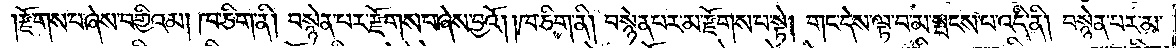།རྫོགས་པ་ཞེས་བགྱིའམ། ཁ་ཅིག་ནི། བསྙེན་པར་རྫོགས་པ་ཞེས་བྱའོ། །ཁ་ཅིག་ནི། བསྙེན་པར་མ་རྫོགས་པ་སྟེ། གང་དེས་ལྟ་བ་མ་སྤངས་པ་འདི་ནི། བསྙེན་པར་མ་
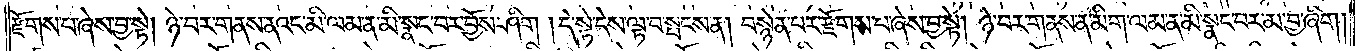རྫོགས་པ་ཞེས་བྱ་སྟེ། ཉེ་བར་གནས་ནའང་མི་ལམ་ན་མི་སྣང་བར་བྱོས་ཤིག །དེ་སྟེ་དེས་ལྟ་བ་སྤངས་ན། བསྙེན་པར་རྫོགས་པ་ཞེས་བྱ་སྟེ། ཉེ་བར་གནས་ན་མིག་ལམ་ན་མི་སྣང་པར་མ་བྱ་ཞིག།
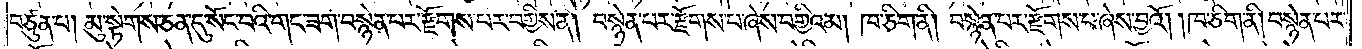བཙུན་པ། མུ་སྟེགས་ཅན་དུ་སོང་བའི་གང་ཟག་བསྙེན་པར་རྫོགས་པར་བགྱིས་ན། བསྙེན་པར་རྫོགས་པ་ཞེས་བགྱིའམ། ཁ་ཅིག་ནི། བསྙེན་པར་རྫོགས་པ་ཞེས་བྱའོ། །ཁ་ཅིག་ནི། བསྙེན་པར་
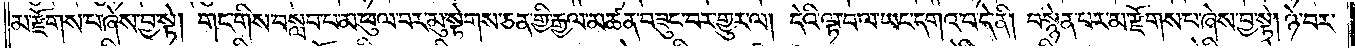མ་རྫོགས་པ་ཞེས་བྱ་སྟེ། གང་གིས་བསླབ་པ་མ་ཕུལ་བར་མུ་སྟེགས་ཅན་གྱི་རྒྱལ་མཚན་བཟུང་བར་གྱུར་ལ། དེའི་ལྟ་བ་ལ་ཡང་དགའ་བ་དེ་ནི། བསྙེན་པར་མ་རྫོགས་པ་ཞེས་བྱ་སྟེ། ཉེ་བར་
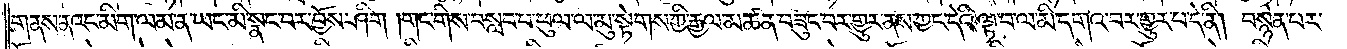གནས་ནའང་མིག་ལམ་ན་ཡང་མི་སྣང་བར་བྱོས་ཤིག །གང་གིས་བསླབ་པ་ཕུལ་ལ་མུ་སྟེགས་ཀྱི་རྒྱལ་མཚན་བཟུང་བར་གྱུར་ནས་ཀྱང་དེའི་ལྟ་བ་ལ་མི་དགའ་བར་གྱུར་པ་དེ་ནི། བསྙེན་པར་
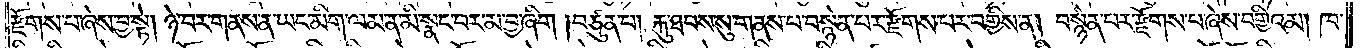རྫོགས་པ་ཞེས་བྱ་སྟེ། ཉེ་བར་གནས་ན་ཡང་མིག་ལམ་ན་མི་སྣང་བར་མ་བྱ་ཞིག། བཙུན་པ། རྐུ་ཐབས་སུ་གནས་པ་བསྙེན་པར་རྫོགས་པར་བགྱིས་ན། བསྙེན་པར་རྫོགས་པ་ཞེས་བགྱིའམ། ཁ་
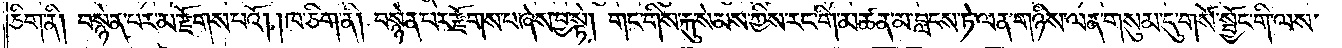ཅིག་ནི། བསྙེན་པར་མ་རྫོགས་པའོ། །ཁ་ཅིག་ནི། བསྙེན་པར་རྫོགས་པ་ཞེས་བྱ་སྟེ། གང་གིས་རྐུ་སེམས་ཀྱིས་རང་གི་མཚན་མ་བླངས་ཏེ་ལན་གཉིས་ལན་གསུམ་དུ་གསོ་སྦྱོང་གི་ལས་
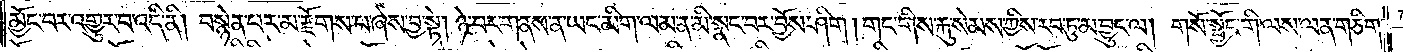མྱོང་བར་འགྱུར་བ་འདི་ནི། བསྙེན་པར་མ་རྫོགས་པ་ཞེས་བྱ་སྟེ། ཉེ་བར་གནས་ན་ཡང་མིག་ལམ་ན་མི་སྣང་བར་བྱོས་ཤིག །གང་གིས་རྐུ་སེམས་ཀྱིས་རབ་ཏུ་མ་བྱུང་ལ། གསོ་སྦྱོང་གི་ལས་ལན་གཅིག་
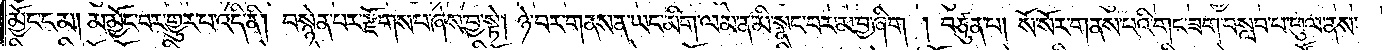མྱོང་ངམ། མ་མྱོང་བར་གྱུར་པ་འདི་ནི། བསྙེན་པར་རྫོགས་པ་ཞེས་བྱ་སྟེ། ཉེ་བར་གནས་ན་ཡང་མིག་ལམ་ན་མི་སྣང་བར་མ་བྱ་ཞིག །བཙུན་པ། སོ་སོར་གནས་པའི་གང་ཟག་བསླབ་པ་ཕུལ་ནས་
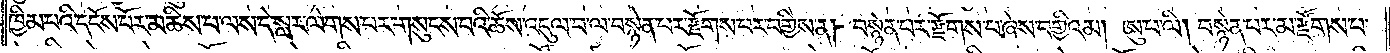ཁྱིམ་པའི་དངོས་པོར་མཆིས་པ་ལས་དེ་སླར་ལེགས་པར་གསུངས་པའི་ཆོས་འདུལ་བ་ལ་བསྙེན་པར་རྫོགས་པར་བགྱིས་ན། བསྙེན་པར་རྫོགས་པ་ཞེས་བགྱིའམ། ཨུ་པ་ལི། བསྙེན་པར་མ་རྫོགས་པ་
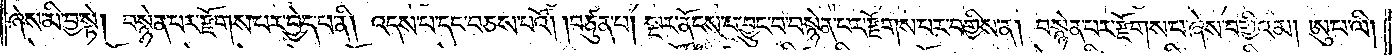ཞེས་མི་བྱ་སྟེ། བསྙེན་པར་རྫོགས་པར་བྱེད་པ་ནི། འདས་པ་དང་བཅས་པའོ། །བཙུན་པ། སྔར་ནོངས་པ་བྱུང་བ་བསྙེན་པར་རྫོགས་པར་བགྱིས་ན། བསྙེན་པར་རྫོགས་པ་ཞེས་བགྱིའམ། ཨུ་པ་ལི།
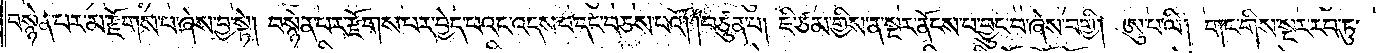བསྙེན་པར་མ་རྫོགས་པ་ཞེས་བྱ་སྟེ། བསྙེན་པར་རྫོགས་པར་བྱེད་པའང་འདས་པ་དང་བཅས་པའོ། །བཙུན་པ། ཇི་ཙམ་གྱིས་ན་སྔར་ནོངས་པ་བྱུང་བ་ཞེས་བགྱི། ཨུ་པ་ལི། གང་གིས་སྔར་རབ་ཏུ་
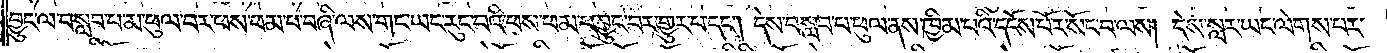བྱུང་ལ་བསླབ་པ་མ་ཕུལ་བར་ཕས་ཕམ་པ་བཞི་ལས་གང་ཡང་རུང་བའི་ཕས་ཕམ་པ་བྱུང་བར་གྱུར་པ་དང༌། དེས་བསླབ་པ་ཕུལ་ནས་ཁྱིམ་པའི་དངོས་པོར་སོང་བ་ལས། དེས་སླར་ཡང་ལེགས་པར་
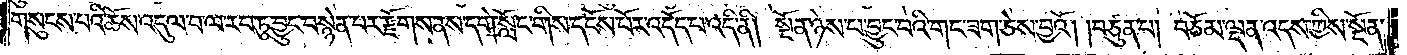གསུངས་པའི་ཆོས་འདུལ་བ་ལ་རབ་ཏུ་བྱུང་བསྙེན་པར་རྫོགས་ནས་དགེ་སློང་གིས་དངོས་པོར་འདོད་པ་འདི་ནི། སྔོན་ཉེས་པ་བྱུང་བའི་གང་ཟག་ཅེས་བྱའོ། །བཙུན་པ། བཅོམ་ལྡན་འདས་ཀྱིས་སྔོན་
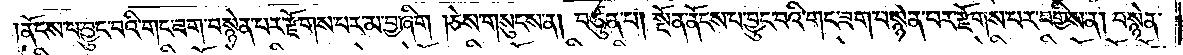།ནོངས་པ་བྱུང་བའི་གང་ཟག་བསྙེན་པར་རྫོགས་པར་མ་བྱ་ཞིག །ཅེས་གསུངས་ན། བཙུན་པ། སྔོན་ནོངས་པ་བྱུང་བའི་གང་ཟག་བསྙེན་པར་རྫོགས་པར་བགྱིས་ན། བསྙེན་
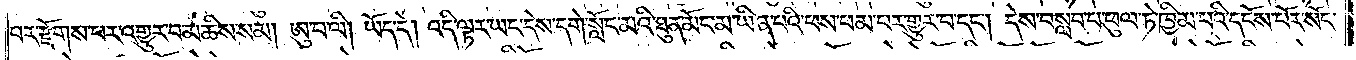པར་རྫོགས་པར་འགྱུར་བ་མཆིས་སམ། ཨུ་པ་ལི། ཡོད་དེ། འདི་ལྟར་ཡང་དེས་དགེ་སློང་མའི་ཐུན་མོང་མ་ཡིན་པའི་ཕས་ཕམ་པར་གྱུར་པ་དང༌། དེས་བསླབ་པ་ཕུལ་ཏེ་ཁྱིམ་པའི་དངོས་པོར་སོང་
